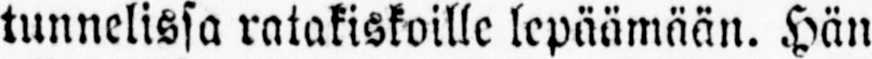tunnelissa ratakiskoille lepäämään. Hän
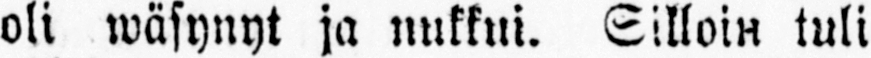oli wäsynyt ja nukkui. Silloin tuli
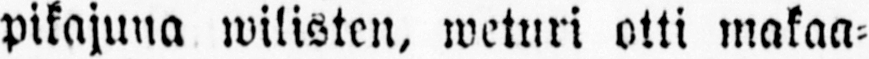pikajuna wilisten, weturi otti makaa-
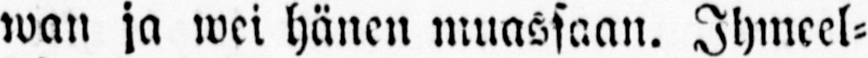wan ja wei hänen muassaan. Ihmeel-
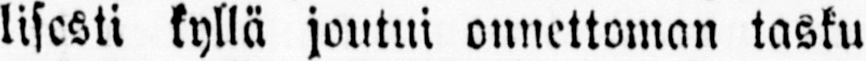lisesti kyllä joutui onnettoman tasku
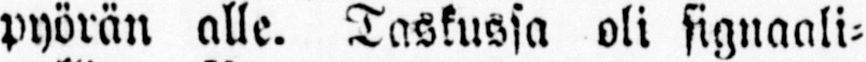pyörän alle. Taskussa oli signaali-
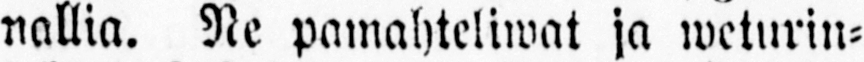nallia. Ne pamahteliwat ja weturin-
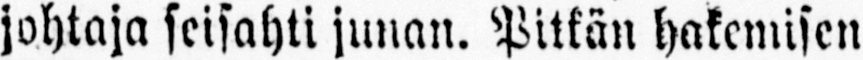johtaja seisahti junan. Pitkän hakemisen
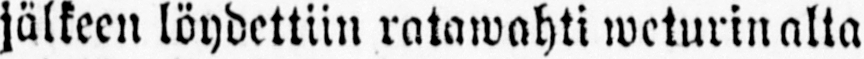jälkeen löydettiin ratawahti weturinalta
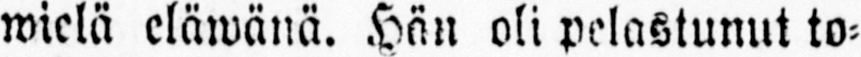wielä eläwänä. Hän oli pelastunut to-
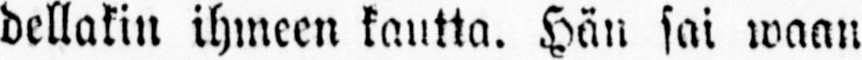dellakin ihmeen kautta. Hän sai waan
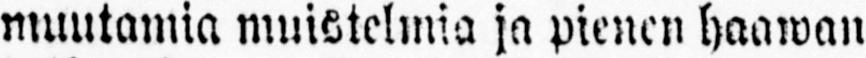muutamia muistelmia ja pienen haawau
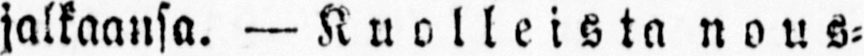jalkaansa. —Kuolleista nous-
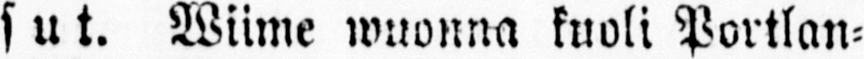sut. Wiime wuonna kuoli Portlan-
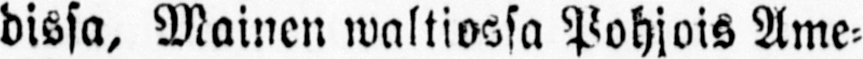dissa. Mainen waltiossa Pohjois Ame-
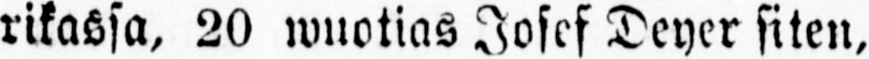rikassa, 20 wuotias Josef Deyer siten,
